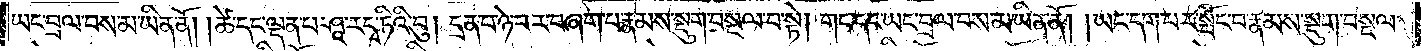ཡང་བྲལ་བས་མ་ཡིན་ནོ། །ཚེ་དང་ལྡན་པ་ཤཱ་ར་དྭ་ཏིའི་བུ། དྲན་པ་ཉེ་བར་བཞག་པ་རྣམས་སྡུག་བསྔལ་བ་སྟེ། གང་དང་ཡང་བྲལ་བས་མ་ཡིན་ནོ། །ཡང་དག་པར་སྤོང་བ་རྣམས་སྡུག་བསྔལ་
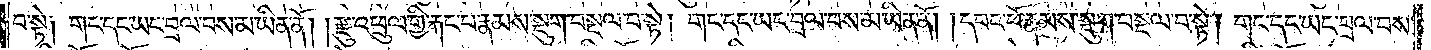བ་སྟེ༑ གང་དང་ཡང་བྲལ་བས་མ་ཡིན་ནོ། །རྫུ་འཕྲུལ་གྱི་རྐང་པ་རྣམས་སྡུག་བསྔལ་བ་སྟེ། གང་དང་ཡང་བྲལ་བས་མ་ཡིན་ནོ། །དབང་པོ་རྣམས་སྡུག་བསྔལ་བ་སྟེ། གང་དང་ཡང་བྲལ་བས་
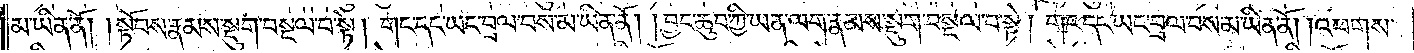མ་ཡིན་ནོ། །སྟོབས་རྣམས་སྡུག་བསྔལ་བ་སྟེ། གང་དང་ཡང་བྲལ་བས་མ་ཡིན་ནོ། །བྱང་ཆུབ་ཀྱི་ཡན་ལག་རྣམས་སྡུག་བསྔལ་བ་སྟེ། གང་དང་ཡང་བྲལ་བས་མ་ཡིན་ནོ། །འཕགས་
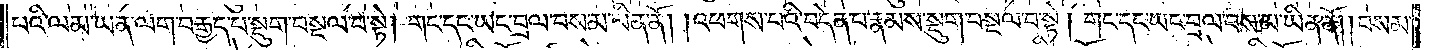པའི་ལམ་ཡན་ལག་བརྒྱད་པ་སྡུག་བསྔལ་བ་སྟེ། གང་དང་ཡང་བྲལ་བས་མ་ཡིན་ནོ། །འཕགས་པའི་བདེན་པ་རྣམས་སྡུག་བསྔལ་བ་སྟེ། གང་དང་ཡང་བྲལ་བས་མ་ཡིན་ནོ། །བསམ་
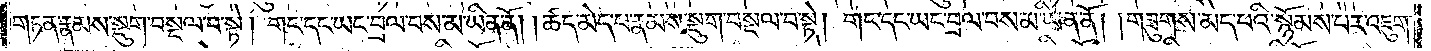གཏན་རྣམས་སྡུག་བསྔལ་བ་སྟེ། གང་དང་ཡང་བྲལ་བས་མ་ཡིན་ནོ། །ཚད་མེད་པ་རྣམས་སྡུག་བསྔལ་པ་སྟེ། གང་དང་ཡང་བྲལ་བས་མ་ཡིན་ནོ། །གཟུགས་མེད་པའི་སྙོམས་པར་འཇུག་
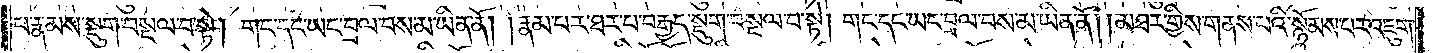པ་རྣམས་སྡུག་བསྔལ་བ་སྟེ། གང་དང་ཡང་བྲལ་བས་མ་ཡིན་ནོ། །རྣམ་པར་ཐར་པ་བརྒྱད་སྡུག་བསྔལ་བ་སྟེ། གང་དང་ཡང་བྲལ་བས་མ་ཡིན་ནོ། །མཐར་གྱིས་གནས་པའི་སྙོམས་པར་འཇུག་
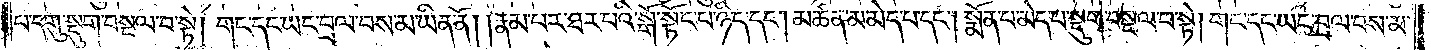པ་དགུ་སྡུག་བསྔལ་བ་སྟེ། གང་དང་ཡང་བྲལ་བས་མ་ཡིན་ནོ། །རྣམ་པར་ཐར་པའི་སྒོ་སྟོང་པ་ཉིད་དང༌། མཚན་མ་མེད་པ་དང༌། སྨོན་པ་མེད་པ་སྡུག་བསྔལ་བ་སྟེ། གང་དང་ཡང་བྲལ་བས་མ་
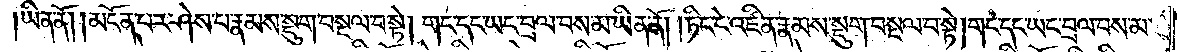ཡིན་ནོ། །མངོན་པར་ཤེས་པ་རྣམས་སྡུག་བསྔལ་བ་སྟེ། གང་དང་ཡང་བྲལ་བས་མ་ཡིན་ནོ། །ཏིང་ངེ་འཛིན་རྣམས་སྡུག་བསྔལ་བ་སྟེ། གང་དང་ཡང་བྲལ་བས་མ་
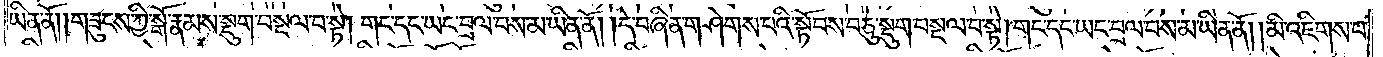ཡིན་ནོ། །གཟུངས་ཀྱི་སྒོ་རྣམས་སྡུག་བསྔལ་བ་སྟེ། གང་དང་ཡང་བྲལ་བས་མ་ཡིན་ནོ། །དེ་བཞིན་གཤེགས་པའི་སྟོབས་བཅུ་སྡུག་བསྔལ་བ་སྟེ། གང་དང་ཡང་བྲལ་བས་མ་ཡིན་ནོ། །མི་འཇིགས་པ་
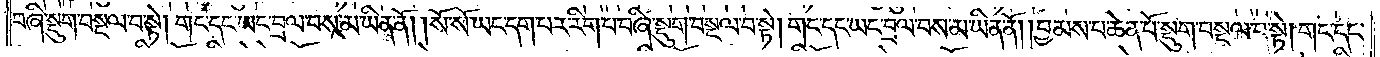བཞི་སྡུག་བསྔལ་བ་སྟེ། གང་དང་ཡང་བྲལ་བས་མ་ཡིན་ནོ། །སོ་སོ་ཡང་དག་པར་རིག་པ་བཞི་སྡུག་བསྔལ་བ་སྟེ། གང་དང་ཡང་བྲལ་བས་མ་ཡིན་ནོ། །བྱམས་པ་ཆེན་པོ་སྡུག་བསྔལ་བ་སྟེ། གང་དང་
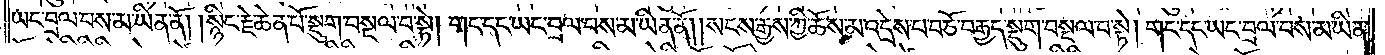ཡང་བྲལ་བས་མ་ཡིན་ནོ། །སྙིང་རྗེ་ཆེན་པོ་སྡུག་བསྔལ་བ་སྟེ། གང་དང་ཡང་བྲལ་བས་མ་ཡིན་ནོ། །སངས་རྒྱས་ཀྱི་ཆོས་མ་འདྲེས་པ་བཅོ་བརྒྱད་སྡུག་བསྔལ་བ་སྟེ། གང་དང་ཡང་བྲལ་བས་མ་ཡིན་
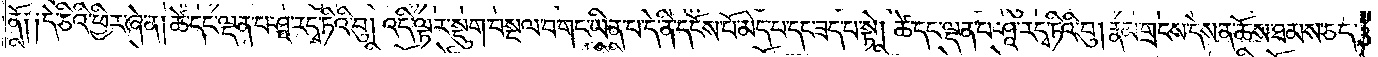ནོ། །དེ་ཅིའི་ཕྱིར་ཞེ་ན། ཚེ་དང་ལྡན་པ་ཤཱ་ར་དྭ་ཏིའི་བུ། འདི་ལྟར་སྡུག་བསྔལ་བ་གང་ཡིན་པ་དེ་ནི་དངོས་པོ་མེད་པ་དང་ཟད་པ་སྟེ། ཚེ་དང་ལྡན་པ་ཤཱ་ར་དྭ་ཏིའི་བུ། རྣམ་གྲངས་དེས་ན་ཆོས་ཐམས་ཅད་
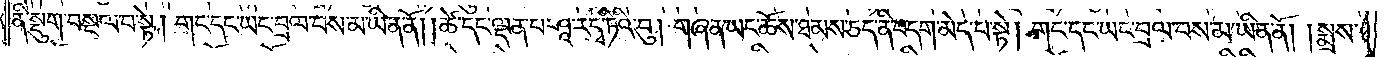ནི་སྡུག་བསྔལ་བ་སྟེ། གང་དང་ཡང་བྲལ་བས་མ་ཡིན་ནོ། །ཚེ་དང་ལྡན་པ་ཤཱ་ར་དྭ་ཏིའི་བུ། གཞན་ཡང་ཆོས་ཐམས་ཅད་ནི་བདག་མེད་པ་སྟེ། གང་དང་ཡང་བྲལ་བས་མ་ཡིན་ནོ། །སྨྲས་
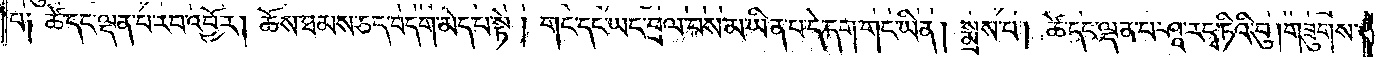པ༑ཚེ་དང་ལྡན་པ་རབ་འབྱོར། ཆོས་ཐམས་ཅད་བདག་མེད་པ་སྟེ། གང་དང་ཡང་བྲལ་བས་མ་ཡིན་པ་དེ་དག་གང་ཡིན། སྨྲས་པ། ཚེ་དང་ལྡན་པ་ཤཱ་ར་དྭ་ཏིའི་བུ། གཟུགས་
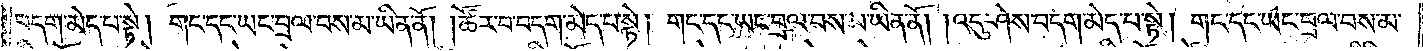བདག་མེད་པ་སྟེ། གང་དང་ཡང་བྲལ་བས་མ་ཡིན་ནོ། །ཚོར་བ་བདག་མེད་པ་སྟེ། གང་དང་ཡང་བྲལ་བས་མ་ཡིན་ནོ། །འདུ་ཤེས་བདག་མེད་པ་སྟེ། གང་དང་ཡང་བྲལ་བས་མ་
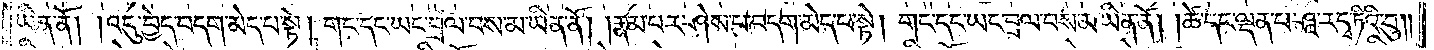ཡིན་ནོ། །འདུ་བྱེད་བདག་མེད་པ་སྟེ། གང་དང་ཡང་བྲལ་བས་མ་ཡིན་ནོ། །རྣམ་པར་ཤེས་པ་བདག་མེད་པ་སྟེ། གང་དང་ཡང་བྲལ་བས་མ་ཡིན་ནོ། །ཚེ་དང་ལྡན་པ་ཤཱ་ར་དྭ་ཏིའི་བུ།
